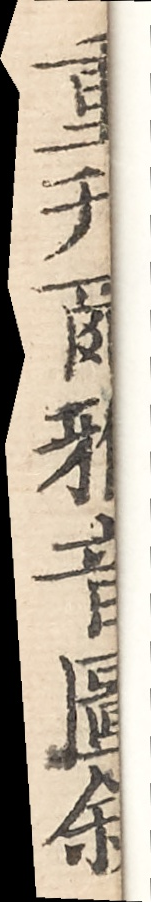重刊爾雅音圖敘
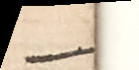一
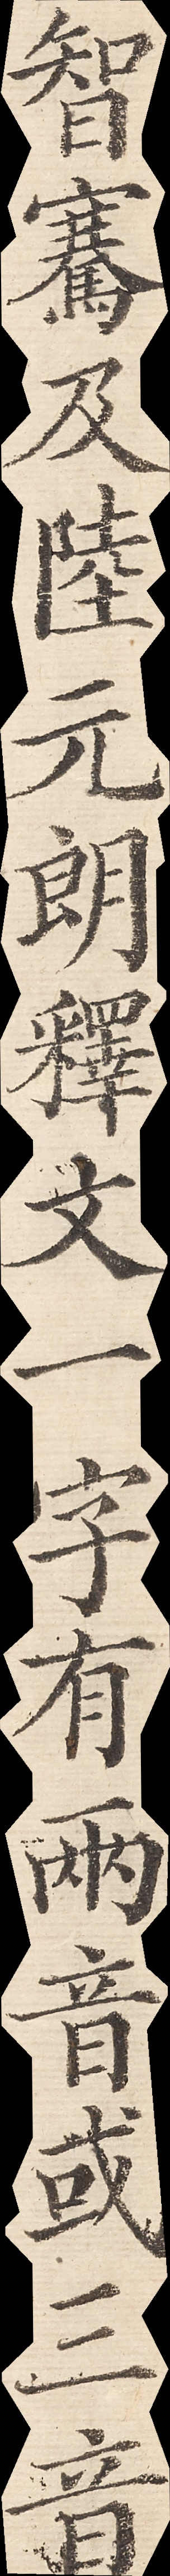智騫及陸元朗釋文一字有兩音或三音
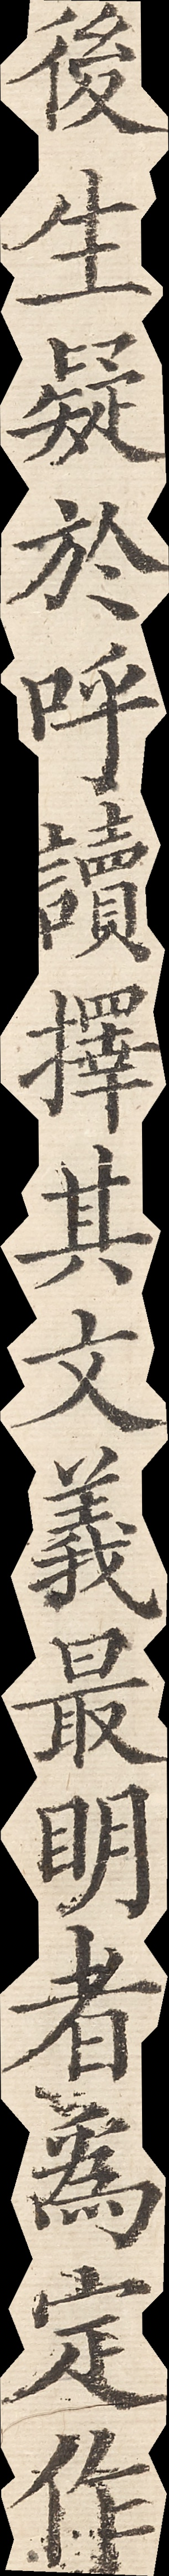後生疑千呼讀擇其文義最明者為定作
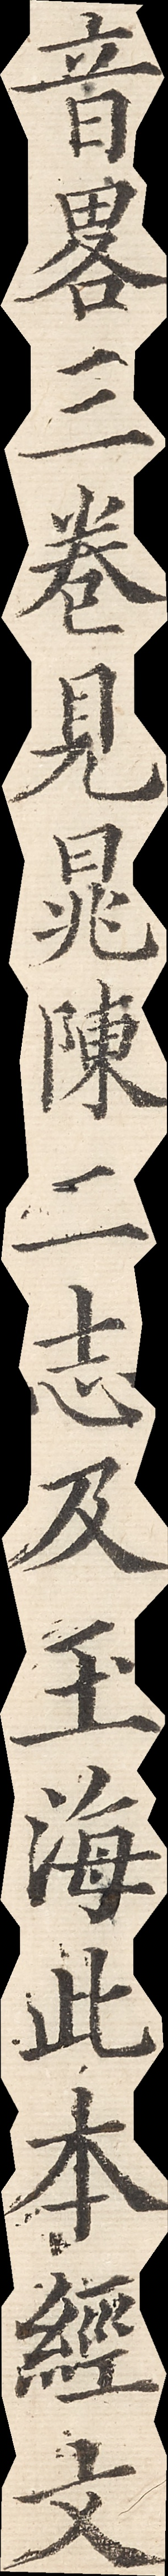音略三卷見晁陳二志及王海詞本經文
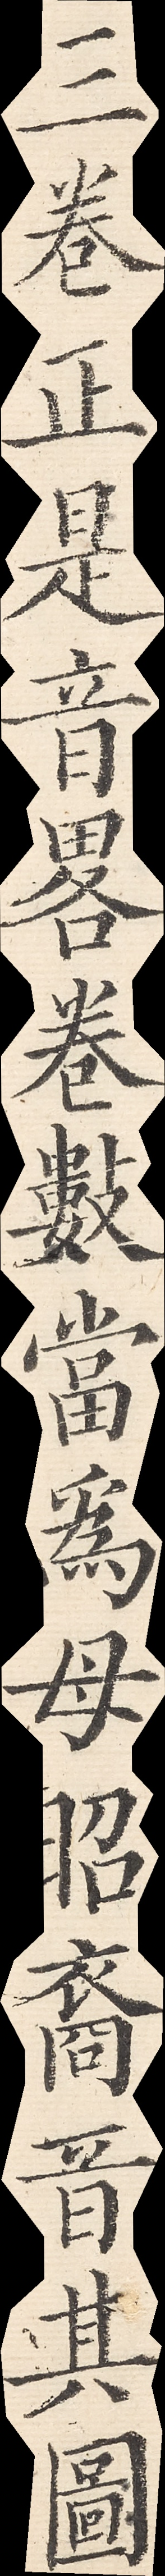三卷正是音略卷數當為母昭裔音其圖
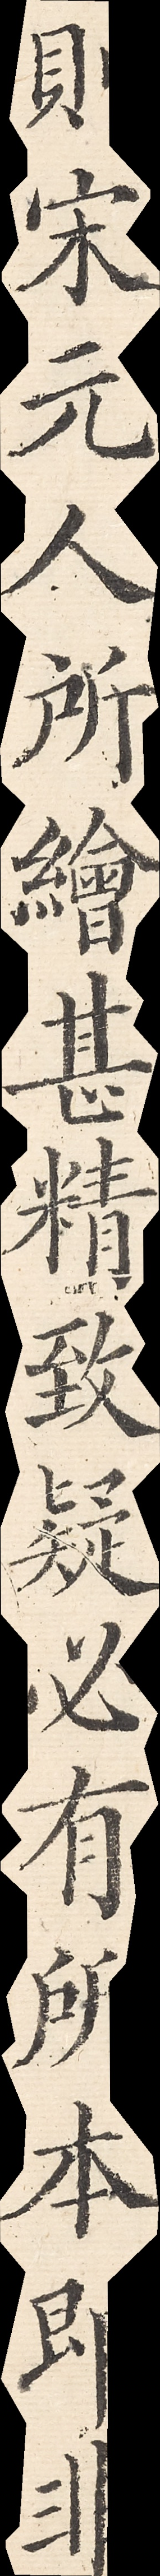則宋元人所繪甚精致疑必有所本即非
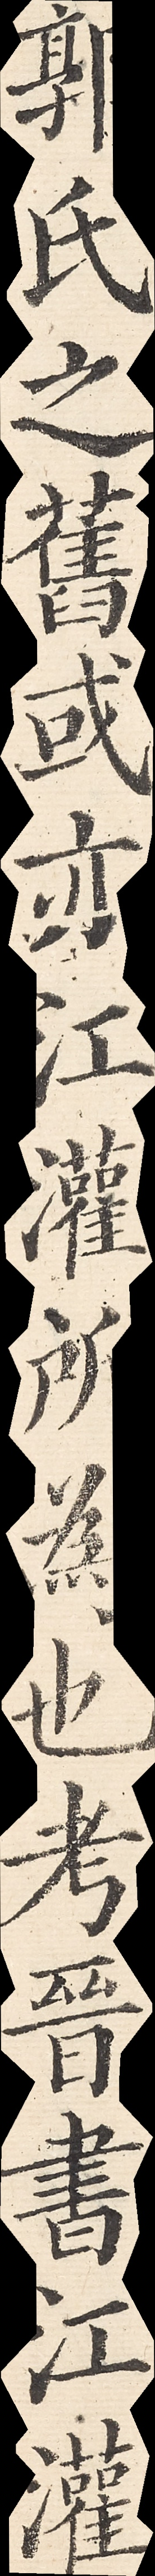郭氏之舊或亦江灌所為也考晉書江灌
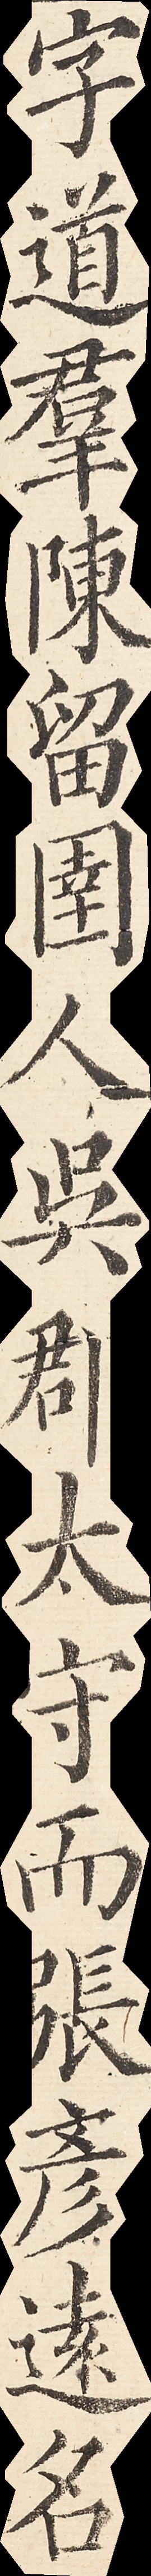字到群陳留園人吳郡太守而張彥遠名
